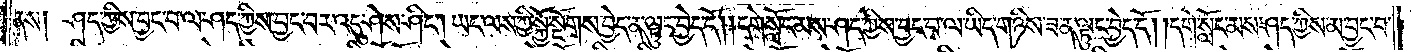ནས། ཤད་ཀྱིས་བྱང་བ་ལ་ཤད་ཀྱིས་བྱང་བར་འདུ་ཤེས་ཤིང༌། ཡང་ལས་ཀྱི་སྐྱོ་སྔོགས་བྱེད་ན་ལྟུང་བྱེད་དོ། །དགེ་སློང་མས་ཤད་ཀྱིས་བྱང་བ་ལ་ཡིད་གཉིས་ཟན་ལྟུང་བྱེད་དོ། །དགེ་སློང་མས་ཤད་ཀྱིས་མ་བྱང་བ་
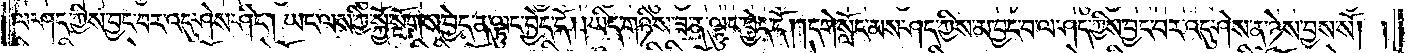ལ་ཤད་ཀྱིས་བྱང་བར་འདུ་ཤེས་ཤིང༌། ཡང་ལས་ཀྱི་སྐྱོ་སྔོགས་བྱེད་ན་ལྟུང་བྱེད་དོ། །ཡིད་གཉིས་ཟ་ན་ལྟུང་བྱེད་དོ། །དགེ་སློང་མས་ཤད་ཀྱིས་མ་བྱང་བ་ལ་ཤད་ཀྱིས་བྱང་བར་འདུ་ཤེས་ན་ཉེས་བྱས་སོ། །
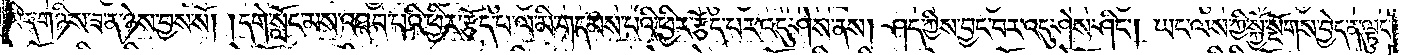ཡིད་གཉིས་ཟ་ན་ཉེས་བྱས་སོ། །དགེ་སློང་མས་འཐབ་པའི་ཕྱིར་རྩོད་པ་ལ་མི་གདམས་པའི་ཕྱིར་རྩོད་པར་འདུ་ཤེས་ནས། ཤད་ཀྱིས་བྱང་བར་འདུ་ཤེས་ཤིང༌། ཡང་ལས་ཀྱི་སྐྱོ་སྔོགས་བྱེད་ན་ལྟུང་
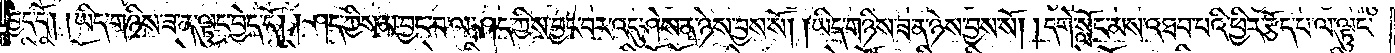བྱེད་དོ། །ཡིད་གཉིས་ཟ་ན་ལྟུང་བྱེད་དོ། །ཤད་ཀྱིས་མ་བྱང་བ་ལ་ཤད་ཀྱིས་བྱང་བར་འདུ་ཤེས་ན་ཉེས་བྱས་སོ། །ཡིད་གཉིས་ཟ་ན་ཉེས་བྱས་སོ། །དགེ་སློང་མས་འཐབ་པའི་ཕྱིར་རྩོད་པ་ལ་ལྟུང་
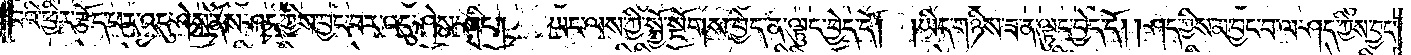བའི་ཕྱིར་རྩོད་པར་འདུ་ཤེས་ནས་ཤད་ཀྱིས་བྱང་བར་འདུ་ཤེས་ཤིང༌། ཡང་ལས་ཀྱི་སྐྱོ་སྔོགས་བྱེད་ན་ལྟུང་བྱེད་དོ། །ཡིད་གཉིས་ཟ་ན་ལྟུང་བྱེད་དོ། །ཤད་ཀྱིས་མ་བྱང་བ་ལ་ཤད་ཀྱིས་བྱང་
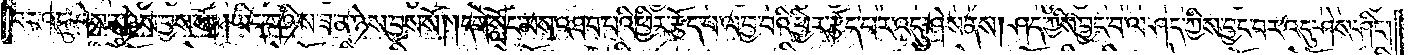བར་འདུ་ཤེས་ན་ཉེས་བྱས་སོ། །ཡིད་གཉིས་ཟ་ན་ཉེས་བྱས་སོ། །དགེ་སློང་མས་འཐབ་པའི་ཕྱིར་རྩོད་པ་ལ་བྱ་བའི་ཕྱིར་རྩོད་པར་འདུ་ཤེས་ནས། ཤད་ཀྱིས་བྱང་བ་ལ་ཤད་ཀྱིས་བྱང་བར་འདུ་ཤེས་ཤིང༌།
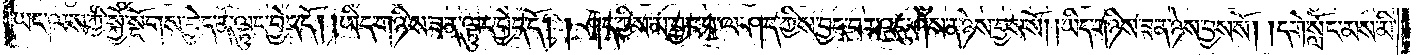ཡང་ལས་ཀྱི་སྐྱོ་སྔོགས་བྱེད་ན་ལྟུང་བྱེད་དོ། །ཡིད་གཉིས་ཟ་ན་ལྟུང་བྱེད་དོ། །ཤད་ཀྱིས་མ་བྱང་བ་ལ་ཤད་ཀྱིས་བྱང་བར་འདུ་ཤེས་ན་ཉེས་བྱས་སོ། །ཡིད་གཉིས་ཟ་ན་ཉེས་བྱས་སོ། །དགེ་སློང་མས་མི་
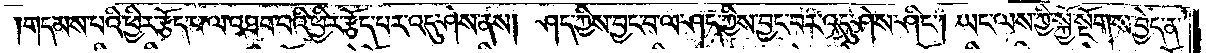གདམས་པའི་ཕྱིར་རྩོད་པ་ལ་འཐབ་པའི་ཕྱིར་རྩོད་པར་འདུ་ཤེས་ནས། ཤད་ཀྱིས་བྱང་བ་ལ་ཤད་ཀྱིས་བྱང་བར་འདུ་ཤེས་ཤིང༌། ཡང་ལས་ཀྱི་སྐྱོ་སྔོགས་བྱེད་ན་
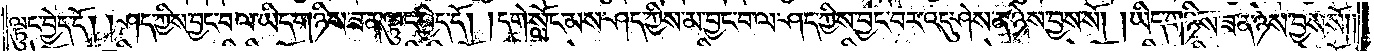ལྟུང་བྱེད་དོ། །ཤད་ཀྱིས་བྱང་བ་ལ་ཡིད་གཉིས་ཟ་ན་ལྟུང་བྱེད་དོ། །དགེ་སློང་མས་ཤད་ཀྱིས་མ་བྱང་བ་ལ་ཤད་ཀྱིས་བྱང་བར་འདུ་ཤེས་ན་ཉེས་བྱས་སོ། །ཡིད་གཉིས་ཟ་ན་ཉེས་བྱས་སོ༎
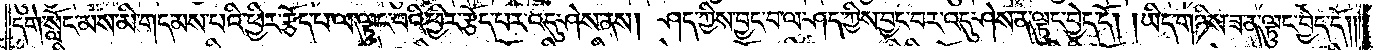དགེ་སློང་མས་མི་གདམས་པའི་ཕྱིར་རྩོད་པ་ལ་ལྟུང་བའི་ཕྱིར་རྩོད་པར་འདུ་ཤེས་ནས། ཤད་ཀྱིས་བྱང་བ་ལ་ཤད་ཀྱིས་བྱང་བར་འདུ་ཤེས་ན་ལྟུང་བྱེད་དོ། །ཡིད་གཉིས་ཟ་ན་ལྟུང་བྱེད་དོ༎
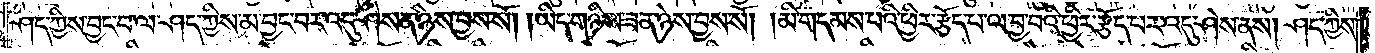ཤད་ཀྱིས་བྱང་བ་ལ་ཤད་ཀྱིས་མ་བྱང་བར་འདུ་ཤེས་ན་ཉེས་བྱས་སོ། །ཡིད་གཉིས་ཟ་ན་ཉེས་བྱས་སོ། །མི་གདམས་པའི་ཕྱིར་རྩོད་པ་ལ་བྱ་བའི་ཕྱིར་རྩོད་པར་འདུ་ཤེས་ནས། ཤད་ཀྱིས་
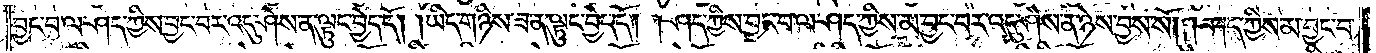བྱང་བ་ལ་ཤད་ཀྱིས་བྱང་བར་འདུ་ཤེས་ན་ལྟུང་བྱེད་དོ། །ཡིད་གཉིས་ཟ་ན་ལྟུང་བྱེད་དོ། །ཤད་ཀྱིས་བྱང་བ་ལ་ཤད་ཀྱིས་མ་བྱང་བར་འདུ་ཤེས་ན་ཉེས་བྱས་སོ། །ཤད་ཀྱིས་མ་བྱང་བ་
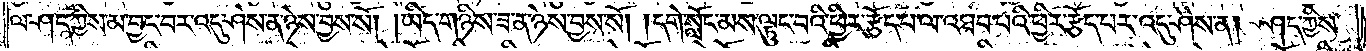ལ་ཤད་ཀྱིས་མ་བྱང་བར་འདུ་ཤེས་ན་ཉེས་བྱས་སོ། །ཡིད་གཉིས་ཟ་ན་ཉེས་བྱས་སོ། །དགེ་སློང་མས་ལྟུང་བའི་ཕྱིར་རྩོད་པ་ལ་འཐབ་པའི་ཕྱིར་རྩོད་པར་འདུ་ཤེས་ན། ཤད་ཀྱིས་
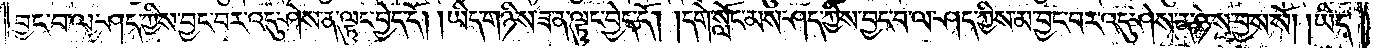བྱང་བ་ལ་ཤད་ཀྱིས་བྱང་བར་འདུ་ཤེས་ན་ལྟུང་བྱེད་དོ། །ཡིད་གཉིས་ཟ་ན་ལྟུང་བྱེད་དོ། །དགེ་སློང་མས་ཤད་ཀྱིས་བྱང་བ་ལ་ཤད་ཀྱིས་མ་བྱང་བར་འདུ་ཤེས་ན་ཉེས་བྱས་སོ། །ཡིད་
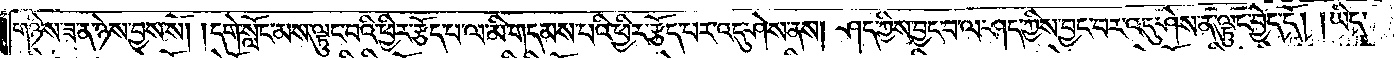གཉིས་ཟ་ན་ཉེས་བྱས་སོ། །དགེ་སློང་མས་ལྟུང་བའི་ཕྱིར་རྩོད་པ་ལ་མི་གདམས་པའི་ཕྱིར་རྩོད་པར་འདུ་ཤེས་ནས། ཤད་ཀྱིས་བྱང་བ་ལ་ཤད་ཀྱིས་བྱང་བར་འདུ་ཤེས་ན་ལྟུང་བྱེད་དོ། །ཡིད་
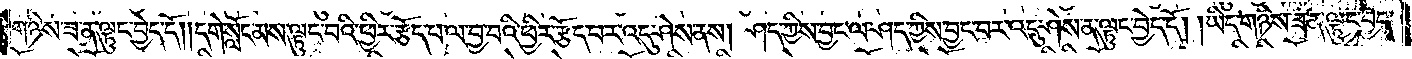གཉིས་ཟ་ན་ལྟུང་བྱེད་དོ། །དགེ་སློང་མས་ལྟུང་བའི་ཕྱིར་རྩོད་པ་ལ་བྱ་བའི་ཕྱིར་རྩོད་པར་འདུ་ཤེས་ནས། ཤད་ཀྱིས་བྱང་ལ་ཤད་ཀྱིས་བྱང་བར་འདུ་ཤེས་ན་ལྟུང་བྱེད་དོ། །ཡིད་གཉིས་ཟ་ན་ལྟུང་བྱེད་
